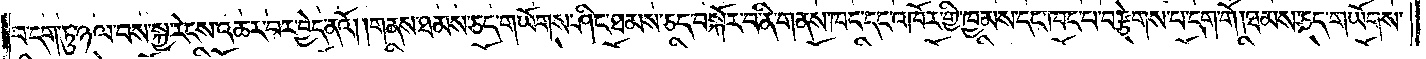བ་དག་ཏུ་ཉལ་བས་སྐྱ་རེངས་འཆར་བར་བྱེད་ནའོ། །གནས་ཐམས་ཅད་གཡོགས་ཤིང་ཐམས་ཅད་བསྐོར་བ་ནི་གནས་ཁང་དང་འཁོར་གྱི་ཁྱམས་དང་ཁང་བ་བརྩེགས་པ་དག་གོ །ཐམས་ཅད་གཡོགས་
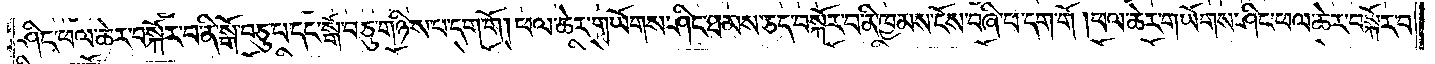ཤིང་ཕལ་ཆེར་བསྐོར་བ་ནི་སྒོ་བཅུ་པ་དང་སྒོ་བཅུ་གཉིས་པ་དག་གོ། ཕལ་ཆེར་གཡོགས་ཤིང་ཐམས་ཅད་བསྐོར་བ་ནི་ཁྱམས་ངོས་བཞི་པ་དག་གོ །ཕལ་ཆེར་གཡོགས་ཤིང་ཕལ་ཆེར་བསྐོར་བ་
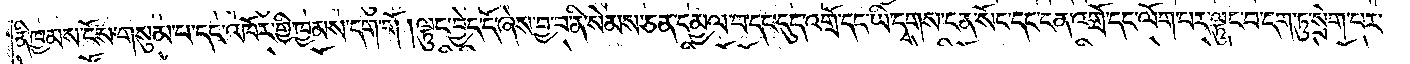ནི་ཁྱམས་ངོས་གསུམ་པ་དང་འཁོར་གྱི་ཁྱམས་དག་གོ །ལྟུང་བྱེད་དོ་ཞེས་བྱ་བ་ནི་སེམས་ཅན་དམྱལ་བ་དང་དུད་འགྲོ་དང་ཡི་དྭགས་ངན་སོང་དང་ངན་འགྲོ་དང་ལོག་པར་ལྟུང་བ་དག་ཏུ་སྲེག་པར་
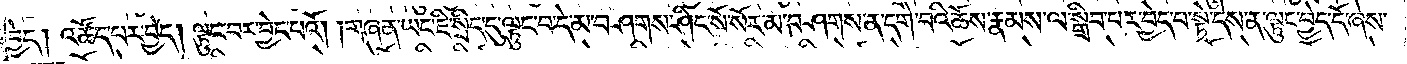བྱེད། འཚོད་པར་བྱེད། ལྟུང་བར་བྱེད་པའོ། །གཞན་ཡང་ཇི་སྲིད་དུ་ལྟུང་བ་དེ་མ་བཤགས་ཤིང་སོ་སོར་མ་བཤགས་ན་དགེ་བའི་ཆོས་རྣམས་ལ་སྒྲིབ་པར་བྱེད་པ་སྟེ་དེས་ན་ལྟུང་བྱེད་དོ་ཞེས་
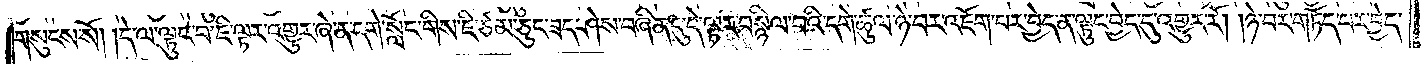གསུངས་སོ། །དེ་ལ་ལྟུང་བ་ཇི་ལྟར་འགྱུར་ཞེ་ན་དགེ་སློང་གིས་ཇི་ཙམ་ཅུང་ཟད་ཤེས་བཞིན་དུ་དེ་ལྟར་བསྙིལ་བའི་དགེ་ཚུལ་ཉེ་བར་འཇོག་པར་བྱེད་ན་ལྟུང་བྱེད་དུ་འགྱུར་རོ། །ཉེ་བར་གཏོད་པར་བྱེད་
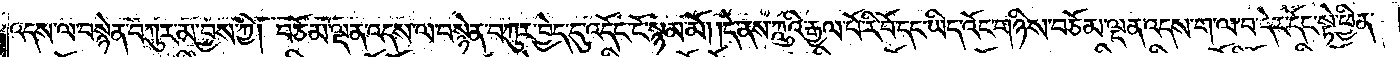འདས་ལ་བསྙེན་བཀུར་མ་བྱས་ཀྱི། བཅོམ་ལྡན་འདས་ལ་བསྙེན་བཀུར་བྱེད་དུ་འདོང་ངོ་སྙམ་མོ། །དེ་ནས་ཀླུའི་རྒྱལ་པོ་རི་བོ་དང་ཡིད་འོང་གཉིས་བཅོམ་ལྡན་འདས་ག་ལ་བ་དེར་དོང་སྟེ་ཕྱིན་
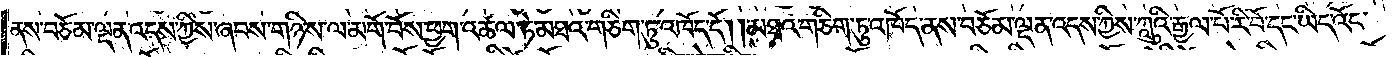ནས་བཅོམ་ལྡན་འདས་ཀྱིས་ཞབས་གཉིས་ལ་མགོ་བོས་ཕྱག་འཚལ་ཏེ་མཐའ་གཅིག་ཏུ་འཁོད་དོ། །མཐའ་གཅིག་ཏུ་འཁོད་ནས་བཅོམ་ལྡན་འདས་ཀྱིས་ཀླུའི་རྒྱལ་པོ་རི་བོ་དང་ཡིད་འོང་
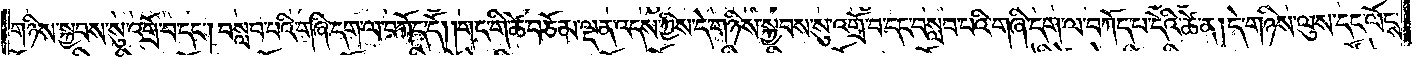གཉིས་སྐྱབས་སུ་འགྲོ་བ་དང༌། བསླབ་པའི་གཞི་དག་ལ་བཀོད་དོ། །གང་གི་ཚེ་བཅོམ་ལྡན་འདས་ཀྱིས་དེ་གཉིས་སྐྱབས་སུ་འགྲོ་བ་དང་བསླབ་པའི་གཞི་དག་ལ་བཀོད་པ་དེའི་ཚེ་ན། དེ་གཉིས་ལུས་དང་ལོངས་
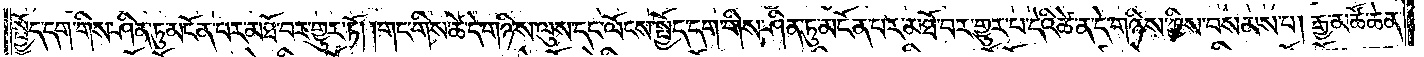སྤྱོད་དག་གིས་ཤིན་ཏུ་མངོན་པར་མཐོ་བར་གྱུར་ཏོ། །གང་གིས་ཚེ་དེ་གཉིས་ལུས་དང་ལོངས་སྤྱོད་དག་གིས་ཤིན་ཏུ་མངོན་པར་མཐོ་བར་གྱུར་པ་དེའི་ཚེ་ན་དེ་གཉིས་ཀྱིས་བསམས་པ། རྒྱ་མཚོ་ཆེན་
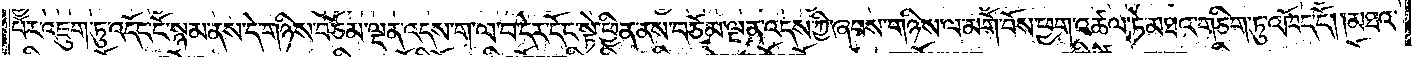པོར་འཇུག་ཏུ་འདོང་ངོ་སྙམ་ནས་དེ་གཉིས་བཅོམ་ལྡན་འདས་ག་ལ་བ་དེར་དོང་སྟེ་ཕྱིན་ནས་བཅོམ་ལྡན་འདས་ཀྱི་ཞབས་གཉིས་ལ་མགོ་བོས་ཕྱག་འཚལ་ཏེ་མཐའ་གཅིག་ཏུ་འཁོད་དོ། །མཐའ་
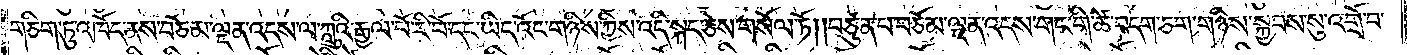གཅིག་ཏུ་འཁོད་ནས་བཅོམ་ལྡན་འདས་ལ་ཀླུའི་རྒྱལ་པོ་རི་བོ་དང་ཡིད་འོང་གཉིས་ཀྱིས་འདི་སྐད་ཅེས་གསོལ་ཏོ། །བཙུན་པ་བཅོམ་ལྡན་འདས་གང་གི་ཚེ་བདག་ཅག་གཉིས་སྐྱབས་སུ་འགྲོ་བ་
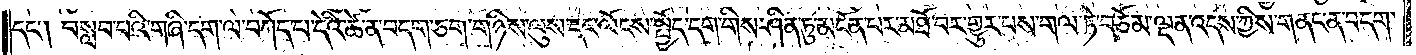དང༌། བསླབ་པའི་གཞི་དག་ལ་བཀོད་པ་དེའི་ཚེ་ན་བདག་ཅག་གཉིས་ལུས་དང་ལོངས་སྤྱོད་དག་གིས་ཤིན་ཏུ་མངོན་པར་མཐོ་བར་གྱུར་པས་གལ་ཏེ་བཅོམ་ལྡན་འདས་ཀྱིས་གནང་ན་བདག་
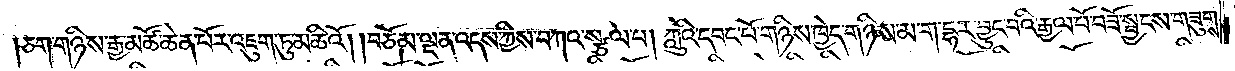ཅག་གཉིས་རྒྱ་མཚོ་ཆེན་པོར་འཇུག་ཏུ་མཆིའོ། །བཅོམ་ལྡན་འདས་ཀྱིས་བཀའ་སྩལ་པ། ཀླུའི་དབང་པོ་གཉིས་ཁྱེད་གཉིས་མ་ག་དྷར་བྱུང་བའི་རྒྱལ་པོ་བཟོ་སྦྱངས་གཟུགས་
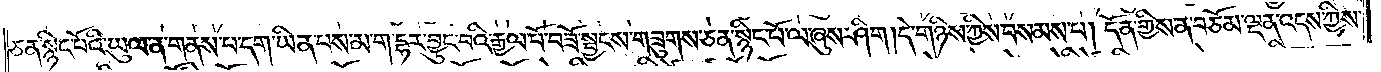ཅན་སྙིང་པོའི་ཡུལ་ན་གནས་པ་དག་ཡིན་པས་མ་ག་དྷར་བྱུང་བའི་རྒྱལ་པོ་བཟོ་སྦྱངས་གཟུགས་ཅན་སྙིང་པོ་ལ་ཞུས་ཤིག །དེ་གཉིས་ཀྱིས་བསམས་པ། དོན་གྱིས་ན་བཅོམ་ལྡན་འདས་ཀྱིས་
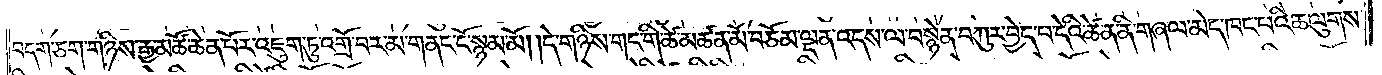བདག་ཅག་གཉིས་རྒྱ་མཚོ་ཆེན་པོར་འཇུག་ཏུ་འགྲོ་བར་མ་གནང་ངོ་སྙམ་མོ། །དེ་གཉིས་གང་གི་ཚེ་མཚན་མོ་བཅོམ་ལྡན་འདས་ལ་བསྙེན་བཀུར་བྱེད་པ་དེའི་ཚེ་ན་ནི་གཞལ་མེད་ཁང་པའི་ཆ་ལུགས་
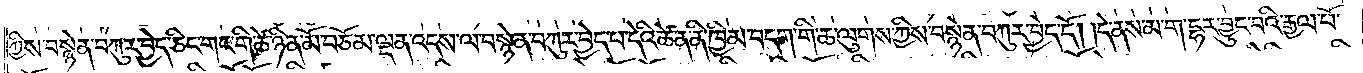ཀྱིས་བསྙེན་བཀུར་བྱེད་ཅིང་གང་གི་ཚེ་ཉིན་མོ་བཅོམ་ལྡན་འདས་ལ་བསྙེན་བཀུར་བྱེད་པ་དེའི་ཚེ་ན་ནི་ཁྱིམ་བདག་གི་ཆ་ལུགས་ཀྱིས་བསྙེན་བཀུར་བྱེད་དོ། །དེ་ནས་མ་ག་དྷར་བྱུང་བའི་རྒྱལ་པོ་
